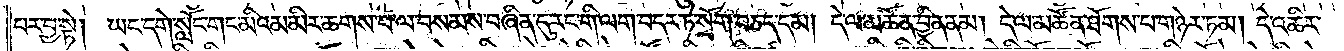པར་བྱ་སྟེ། ཡང་དགེ་སློང་གང་མིའམ་མིར་ཆགས་པ་ལ་བསམས་བཞིན་དུ་རང་གི་ལག་བདར་ཏེ་སྲོག་བཅད་དམ། དེ་ལ་མཚོན་བྱིན་ནམ། དེ་ལ་མཚོན་ཐོགས་པ་གཉེར་ཏམ། དེ་འཆིར་
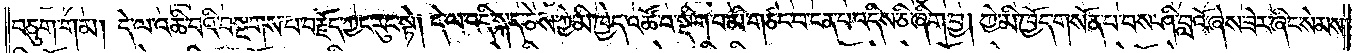བཅུག་གམ། དེ་ལ་འཆི་བའི་བསྔགས་པ་བརྗོད་ཀྱང་རུང་སྟེ། དེ་ལ་འདི་སྐད་ཅེས་ཀྱེ་མི་ཁྱེད་འཚོ་བ་སྡིག་པ་མི་གཙང་བ་ངན་པ་འདིས་ཅི་ཞིག་བྱ། ཀྱེ་མི་ཁྱོད་གསོན་པ་བས་ཤི་བླའོ་ཞེས་ཟེར་ཞིང་སེམས་
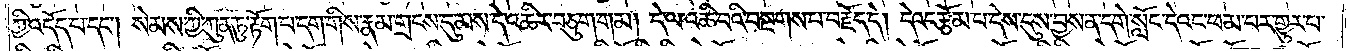ཀྱི་འདོད་པ་དང༌། སེམས་ཀྱི་ཀུན་ཏུ་རྟོག་པ་དག་གིས་རྣམ་གྲངས་དུ་མས་དེ་འཆིར་བཅུག་གམ། དེ་ལ་འཆི་བའི་བསྔགས་པ་བརྗོད་དེ། དེའང་རྩོམ་པ་དེས་དུས་བྱས་ན་དགེ་སློང་དེའང་ཕམ་པར་གྱུར་པ་
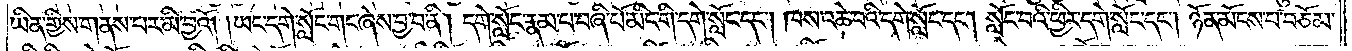ཡིན་གྱིས་གནས་པར་མི་བྱའོ། །ཡང་དགེ་སློང་གང་ཞེས་བྱ་བ་ནི། དགེ་སློང་རྣམ་པ་བཞི་པོ་མིང་གི་དགེ་སློང་དང༌། ཁས་འཆེ་བའི་དགེ་སློང་དང༌། སློང་བའི་ཕྱིར་དགེ་སློང་དང༌། ཉོན་མོངས་པ་བཅོམ་
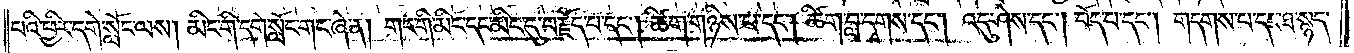པའི་ཕྱིར་དགེ་སློང་ལས། མིང་གི་དགེ་སློང་གང་ཞེ་ན། གང་གི་མིང་དང་མིང་དུ་བརྗོད་པ་དང༌། ཚིག་གཉིས་པ་དང༌། ཚིག་བླ་དྭགས་དང༌། འདུ་ཤེས་དང༌། བོད་པ་དང༌། གདགས་པ་དང་ཐ་སྙད་
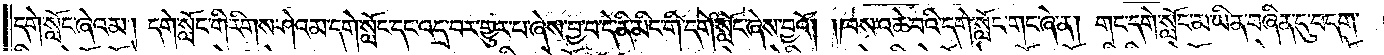དགེ་སློང་ཞེའམ། དགེ་སློང་གི་རིགས་ཤེའམ་དགེ་སློང་དང་འདྲ་བར་གྱུར་པ་ཞེས་བྱ་བ་དེ་ནི་མིང་གི་དགེ་སློང་ཞེས་བྱའོ། །ཁས་འཆེ་བའི་དགེ་སློང་གང་ཞེ་ན། གང་དགེ་སློང་མ་ཡིན་བཞིན་དུ་བདག་
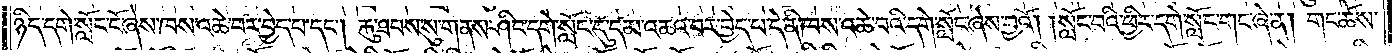ཉིད་དགེ་སློང་ངོ་ཞེས་ཁས་འཆེ་བར་བྱེད་པ་དང༌། རྐུ་ཐབས་སུ་གནས་ཤིང་དགེ་སློང་དུ་དམ་འཆའ་བར་བྱེད་པ་དེ་ནི་ཁས་འཆེ་བའི་དགེ་སློང་ཞེས་བྱའོ། །སློང་བའི་ཕྱིར་དགེ་སློང་གང་ཞེ་ན། གང་ཆོས་
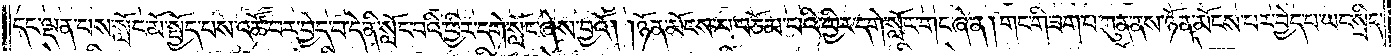དང་ལྡན་པས་སློང་མོ་སྤྱོད་པས་འཚོ་བར་བྱེད་པ་དེ་ནི་སློང་བའི་ཕྱིར་དགེ་སློང་ཞེས་བྱའོ། །ཉོན་མོངས་པ་བཅོམ་པའི་ཕྱིར་དགེ་སློང་གང་ཞེ་ན། གང་གི་ཟག་པ་ཀུན་ནས་ཉོན་མོངས་པར་བྱེད་པ་ཡང་སྲིད་
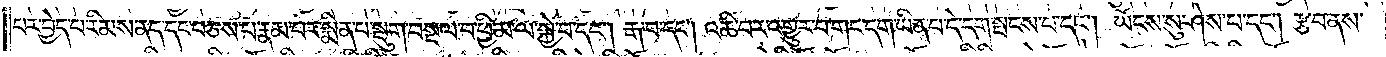པར་བྱེད་པར་རིམས་ནད་དང་བཅས་པ་རྣམ་པར་སྨིན་པ་སྡུག་བསྔལ་བ་ཕྱི་མ་ལ་སྐྱེ་བ་དང༌། རྒ་བ་དང༌། འཆི་བར་འགྱུར་བ་གང་དག་ཡིན་པ་དེ་དག་སྤངས་པ་དང༌། ཡོངས་སུ་ཤེས་པ་དང༌། རྩ་བ་ནས་
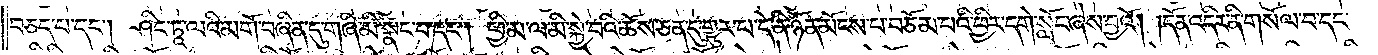བཅད་པ་དང༌། ཤིང་ཏཱ་ལའི་མགོ་བཞིན་དུ་གཞི་མི་སྣང་བ་དང༌། ཕྱི་མ་ལ་མི་སྐྱེ་བའི་ཆོས་ཅན་དུ་གྱུར་པ་དེ་ནི་ཉོན་མོངས་པ་བཅོམ་པའི་ཕྱིར་དགེ་སློང་ཞེས་བྱའོ། །དོན་འདིར་ནི་གསོལ་བ་དང་
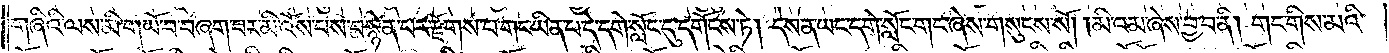གཞིའི་ལས་མི་གཡོ་བ་བཞག་པར་མི་འོས་པས་བསྙེན་པར་རྫོགས་པ་གང་ཡི་པ་དེ་དགེ་སློང་དུ་དགོངས་ཏེ། དེས་ན་ཡང་དགེ་སློང་གང་ཞེས་གསུངས་སོ། །མི་འམ་ཞེས་བྱ་བ་ནི། གང་གིས་མའི་
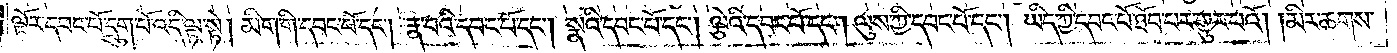ལྟོར་དབང་པོ་དྲུག་པོ་འདི་ལྟ་སྟེ། མིག་གི་དབང་པོ་དང༌། རྣ་བའི་དབང་པོ་དང༌། སྣའི་དབང་པོ་དང༌། ལྕེའི་དབང་པོ་དང༌། ལུས་ཀྱི་དབང་པོ་དང༌། ཡིད་ཀྱི་དབང་པོ་ཐོབ་པར་གྱུར་པའོ། །མིར་ཆགས་
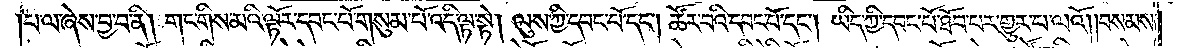པ་ལ་ཞེས་བྱ་བ་ནི། གང་གིས་མའི་ལྟོར་དབང་པོ་གསུམ་པོ་འདི་ལྟ་སྟེ། ལུས་ཀྱི་དབང་པོ་དང༌། ཚོར་བའི་དབང་པོ་དང༌། ཡིད་ཀྱི་དབང་པོ་ཐོབ་པར་གྱུར་པ་ལའོ། །བསམས་
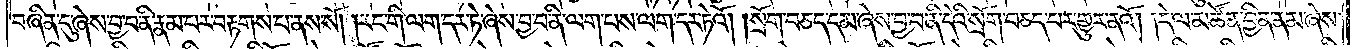བཞིན་དུ་ཞེས་བྱ་བ་ནི་རྣམ་པར་བརྟགས་པ་ནས་སོ། །རང་གི་ལག་དར་ཏེ་ཞེས་བྱ་བ་ནི་ལག་པས་ལག་དར་ཏེའོ། །སྲོག་བཅད་དམ་ཞེས་བྱ་བ་ནི་དེའི་སྲོག་བཅད་པར་གྱུར་ནའོ། །དེ་ལ་མཚོན་བྱིན་ནམ་ཞེས་
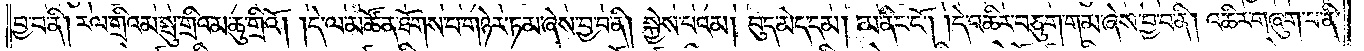བྱ་བ་ནི། རལ་གྲིའམ་སྤུ་གྲིའམ་ཆུ་གྲིའོ། །དེ་ལ་མཚོན་ཐོགས་པ་གཉེར་ཏམ་ཞེས་བྱ་བ་ནི། སྐྱེས་པའམ། བུད་མེད་དམ། མ་ནིང་ངོ༌། །དེ་འཆིར་བཅུག་གམ་ཞེས་བྱ་བ་ནི། འཆིར་གཞུག་པ་ནི་
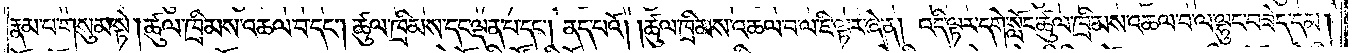རྣམ་པ་གསུམ་སྟེ། ཚུལ་ཁྲིམས་འཆལ་བ་དང༌། ཚུལ་ཁྲིམས་དང་ལྡན་པ་དང༌། ནད་པའོ། །ཚུལ་ཁྲིམས་འཆལ་བ་ལ་ཇི་ལྟར་ཞེ་ན། འདི་ལྟར་དགེ་སློང་ཚུལ་ཁྲིམས་འཆལ་བ་ལ་ལྷུང་བཟེད་དམ།
